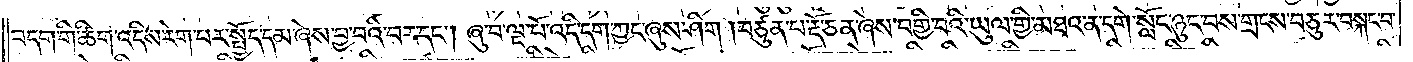བདག་གི་ཚིག་འདིས་རེག་པར་སྤྱོད་དམ་ཞེས་བྱ་བའི་བར་དང༌། ཞུ་བ་ལྔ་པོ་འདི་དག་ཀྱང་ཞུས་ཤིག །བཙུན་པ་རྡོ་ཅན་ཞེས་བགྱི་བའི་ཡུལ་གྱི་མཐའ་ན་དགེ་སློང་ཉུང་བས་གྲངས་བཅུར་བསྐང་བ་
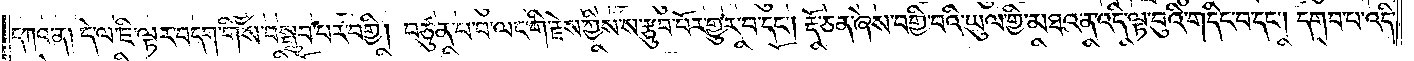དཀའ་ན། དེ་ལ་ཇི་ལྟར་བདག་གིས་བསྒྲུབ་པར་བགྱི། བཙུན་པ་བ་ལང་གི་རྗེས་ཀྱིས་ས་རྩུབ་པོར་གྱུར་བ་དང༌། རྡོ་ཅན་ཞེས་བགྱི་བའི་ཡུལ་གྱི་མཐའ་ན་འདི་ལྟ་བུའི་གདིང་བ་དང༌། དགབ་པ་འདི་
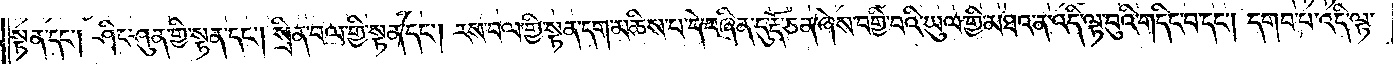སྟན་དང༌། ཤིང་ཤུན་གྱི་སྟན་དང༌། སྲིན་བལ་གྱི་སྟན་དང༌། རས་བལ་གྱི་སྟན་དག་མཆིས་པ་དེ་བཞིན་དུ་རྡོ་ཅན་ཞེས་བགྱི་བའི་ཡུལ་གྱི་མཐའ་ན་འདི་ལྟ་བུའི་གདིང་བ་དང༌། དགབ་པ་འདི་ལྟ་
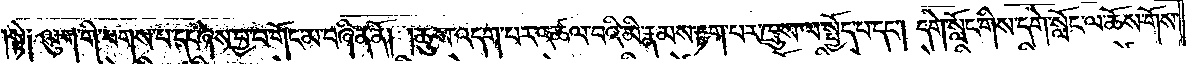སྟེ༑ ལུག་གི་པགས་པ་དང་ཞེས་བྱ་བ་གོང་མ་བཞིན་ནོ། །ཆུས་འདག་པར་འཚལ་བའི་མི་རྣམས་རྟག་པར་ཁྲུས་ལ་སྤྱོད་པ་དང༌། དགེ་སློང་གིས་དགེ་སློང་ལ་ཆོས་གོས་
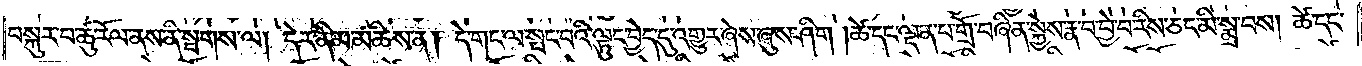བསྐུར་བ་ཚུ་རོལ་ནས་ནི་སྦགས་ལ། དེར་ནི་མ་མཆིས་ན། དེ་གང་ལ་སྤང་བའི་ལྟུང་བྱེད་དུ་འགྱུར་ཞེས་ཞུས་ཤིག །ཚེ་དང་ལྡན་པ་གྲོ་བཞིན་སྐྱེས་རྣ་བ་བྱེ་བ་རིས་ཅང་མི་སྨྲ་བས། ཚེ་དང་
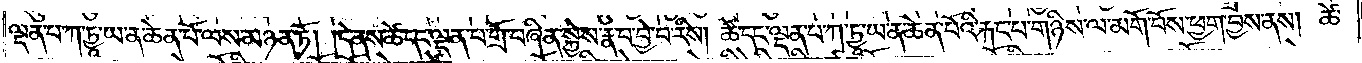ལྡན་པ་ཀ་ཏྱཱ་ཡ་ན་ཆེན་པོ་ལས་མཉན་ཏོ། །དེ་ནས་ཚེ་དང་ལྡན་པ་གྲོ་བཞིན་སྐྱེས་རྣ་བ་བྱེ་བ་རིས། ཚེ་དང་ལྡན་པ་ཀ་ཏྱཱ་ཡ་ན་ཆེན་པོའི་རྐང་པ་གཉིས་ལ་མགོ་བོས་ཕྱག་བྱས་ནས། ཚེ་
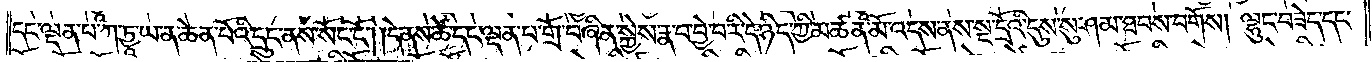དང་ལྡན་པ་ཀ་ཏྱཱ་ཡ་ན་ཆེན་པོའི་དྲུང་ནས་སོང་ངོ༌། །དེ་ནས་ཚེ་དང་ལྡན་པ་གྲོ་བཞིན་སྐྱེས་རྣ་བ་བྱེ་བ་རི་དེ་ཉིད་ཀྱི་མཚན་མོ་འདས་ནས་སྔ་དྲོའི་དུས་སུ་ཤམ་ཐབས་བགོས། ལྷུང་བཟེད་དང་
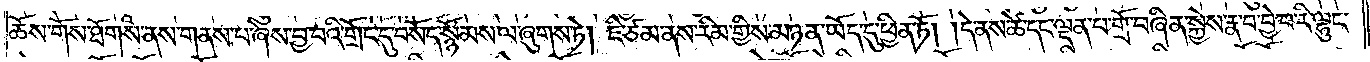ཆོས་གོས་ཐོགས་ནས་གནས་པ་ཞེས་བྱ་བའི་གྲོང་དུ་བསོད་སྙོམས་ལ་ཞུགས་ཏེ། ཇི་ཙམ་ནས་རིམ་གྱིས་མཉན་ཡོད་དུ་ཕྱིན་ཏོ། །དེ་ནས་ཚེ་དང་ལྡན་པ་གྲོ་བཞིན་སྐྱེས་རྣ་བ་བྱེ་བ་རི་ལྷུང་
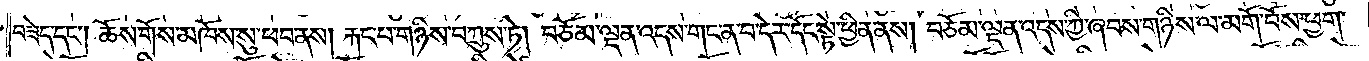བཟེད་དང༌། ཆོས་གོས་མཁོས་སུ་ཕབ་ནས། རྐང་པ་གཉིས་བཀྲུས་ཏེ། བཅོམ་ལྡན་འདས་གང་ན་བ་དེར་དོང་སྟེ་ཕྱིན་ནས། བཅོམ་ལྡན་འདས་ཀྱི་ཞབས་གཉིས་ལ་མགོ་བོས་ཕྱག་
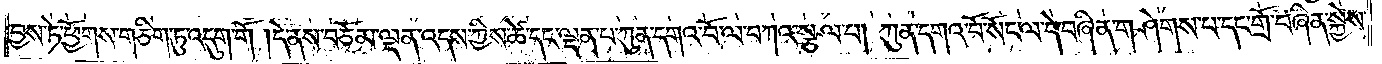བྱས་ཏེ་ཕྱོགས་གཅིག་ཏུ་འདུག་གོ །དེ་ནས་བཅོམ་ལྡན་འདས་ཀྱིས་ཚེ་དང་ལྡན་པ་ཀུན་དགའ་བོ་ལ་བཀའ་སྩལ་པ། ཀུན་དགའ་བོ་སོང་ལ་དེ་བཞིན་གཤེགས་པ་དང་གྲོ་བཞིན་སྐྱེས་
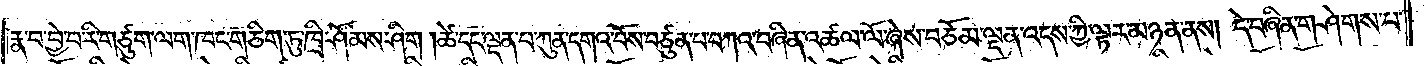རྣ་བ་བྱེ་བ་རི་གཙུག་ལག་ཁང་གཅིག་ཏུ་ཁྲི་ཤོམས་ཤིག །ཚེ་དང་ལྡན་པ་ཀུན་དགའ་བོས་བཙུན་པ་བཀའ་བཞིན་འཚལ་ལོ་ཞེས་བཅོམ་ལྡན་འདས་ཀྱི་ལྟར་མཉན་ནས། དེ་བཞིན་གཤེགས་པ་
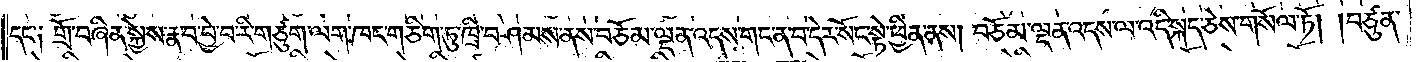དང་༑ གྲོ་བཞིན་སྐྱེས་རྣ་བ་བྱེ་བ་རི་གཙུག་ལག་ཁང་གཅིག་ཏུ་ཁྲི་བཤམས་ནས་བཅོམ་ལྡན་འདས་གང་ན་བ་དེར་སོང་སྟེ་ཕྱིན་ནས། བཅོམ་ལྡན་འདས་ལ་འདི་སྐད་ཅེས་གསོལ་ཏོ། །བཙུན་
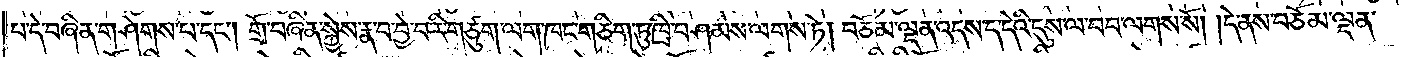པ་དེ་བཞིན་གཤེགས་པ་དང༌། གྲོ་བཞིན་སྐྱེས་རྣ་བ་བྱེ་བ་རི་གཙུག་ལག་ཁང་གཅིག་ཏུ་ཁྲི་བཤམས་ལགས་ཏེ། བཅོམ་ལྡན་འདས་ད་དེའི་དུས་ལ་བབ་ལགས་སོ། །དེ་ནས་བཅོམ་ལྡན་
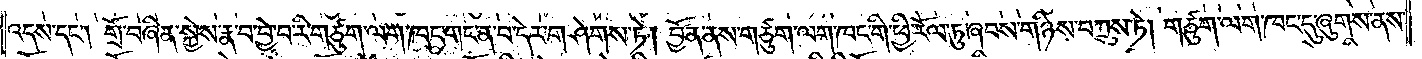འདས་དང༌། གྲོ་བཞིན་སྐྱེས་རྣ་བ་བྱེ་བ་རི་གཙུག་ལག་ཁང་གང་ན་བ་དེར་གཤེགས་ཏེ། བྱོན་ནས་གཙུག་ལག་ཁང་གི་ཕྱི་རོལ་ཏུ་ཞབས་གཉིས་བཀྲུས་ཏེ། གཙུག་ལག་ཁང་དུ་ཞུགས་ནས་
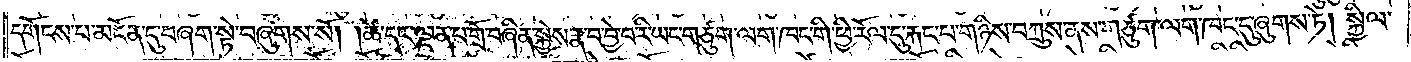དགོངས་པ་མངོན་དུ་བཞག་སྟེ་བཞུགས་སོ། །ཚེ་དང་ལྡན་པ་གྲོ་བཞིན་སྐྱེས་རྣ་བ་བྱེ་བ་རི་ཡང་གཙུག་ལག་ཁང་གི་ཕྱི་རོལ་དུ་རྐང་པ་གཉིས་བཀྲུས་ནས་གཙུག་ལག་ཁང་དུ་ཞུགས་ཏེ། སྐྱིལ་
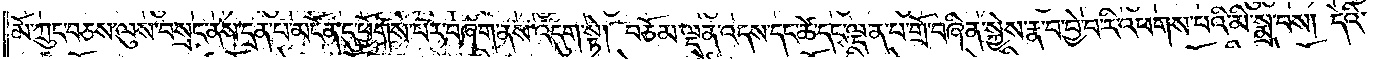མོ་ཀྲུང་བཅས་ལུས་བསྲང་ནས་དྲན་པ་མངོན་དུ་ཕྱོགས་པར་བཞག་ནས་འདུག་སྟེ། བཅོམ་ལྡན་འདས་དང་ཚེ་དང་ལྡན་པ་གྲོ་བཞིན་སྐྱེས་རྣ་བ་བྱེ་བ་རི་འཕགས་པའི་མི་སྨྲ་བས། དེའི་
